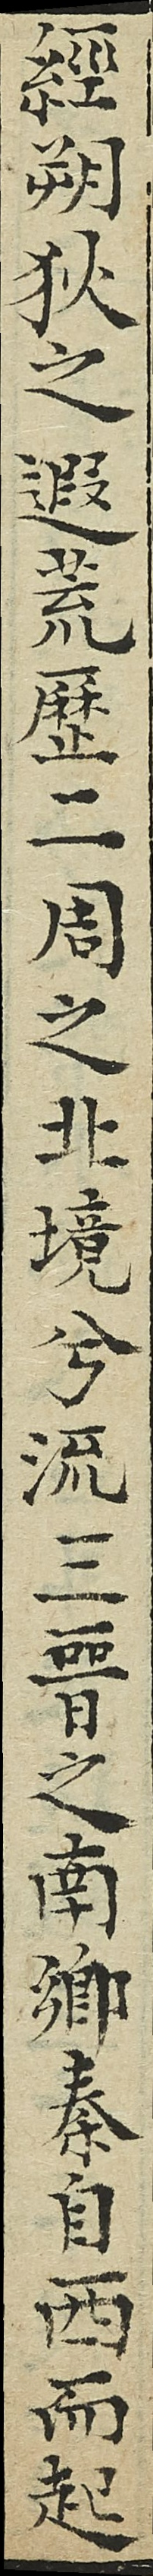經朔狄之遐荒歴二周之北境兮流三晉之南鄉秦自西而起
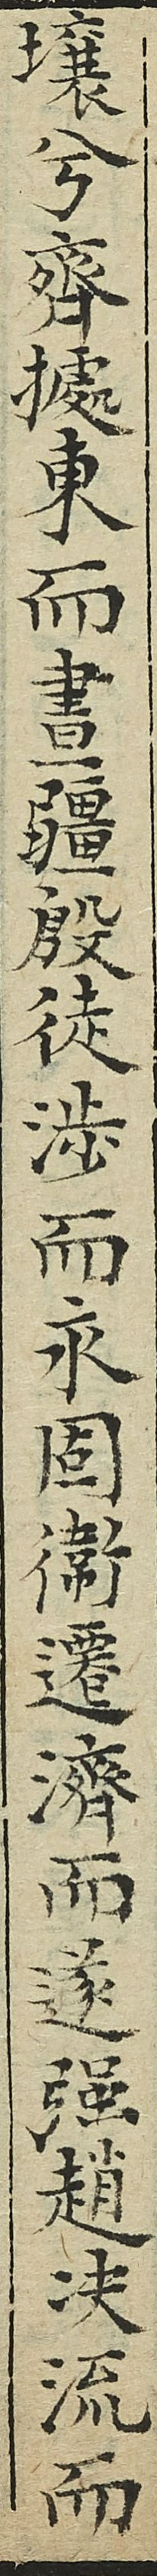壤兮齊據東而畫疆殷徒涉而永固衛遷濟而遂強趙决流而
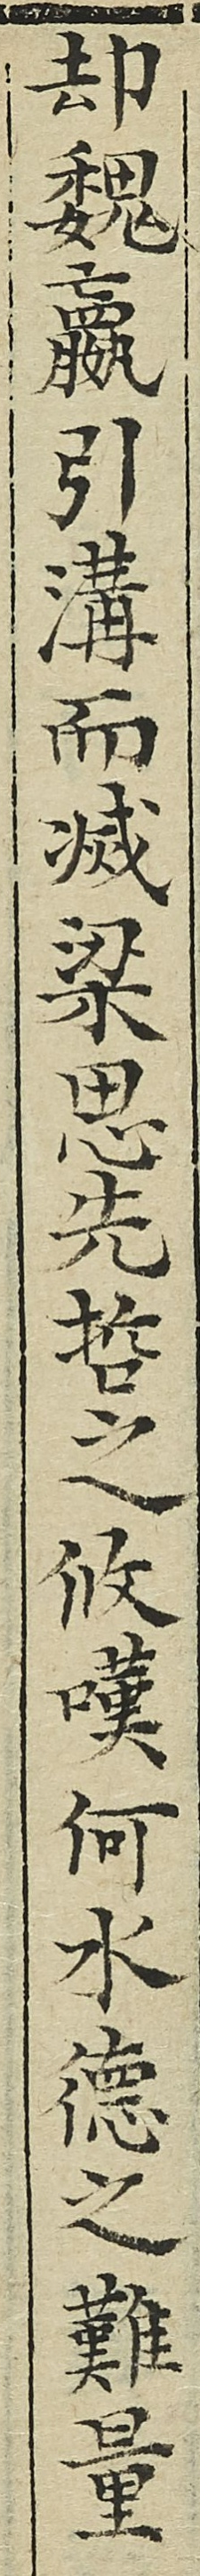却魏嬴引溝而滅梁思先哲之攸歎何水徳之難量
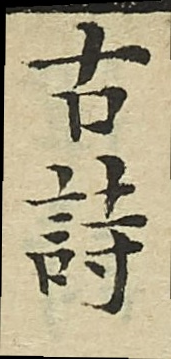古詩
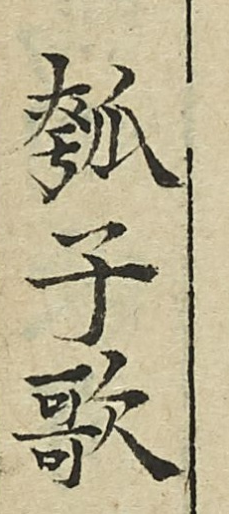瓠子歌
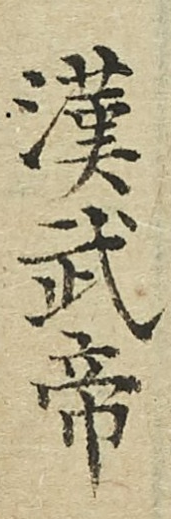漢武帝
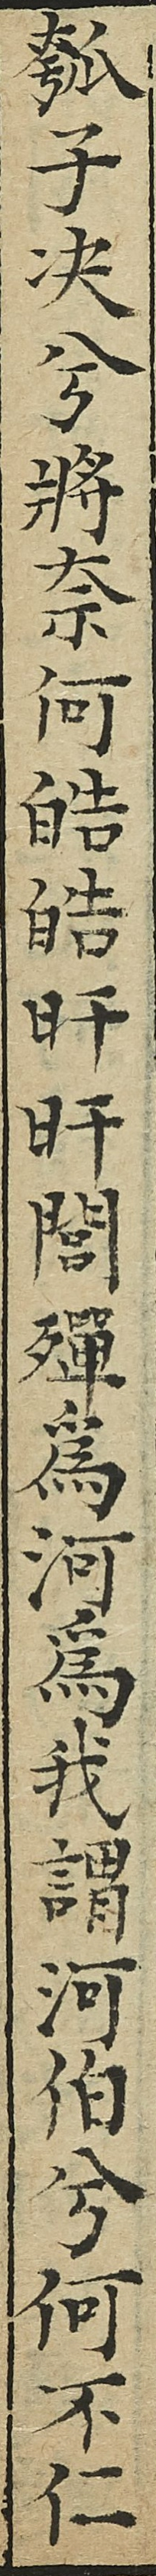瓠子決兮將奈何皓皓旰旰閭殫為河為我謂河伯兮何不仁
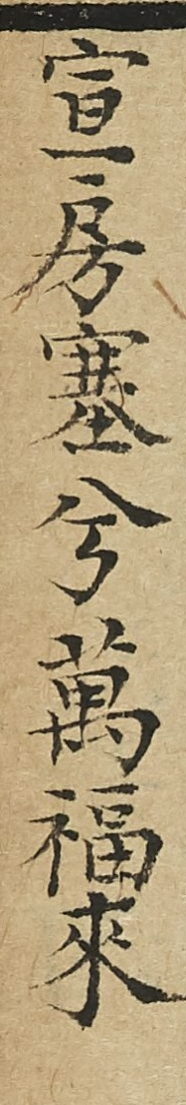宣房塞兮萬福來
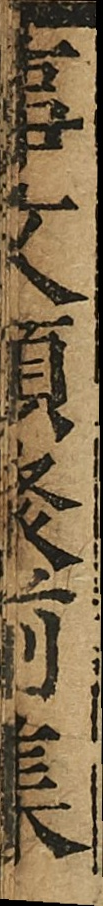事文類聚前集
